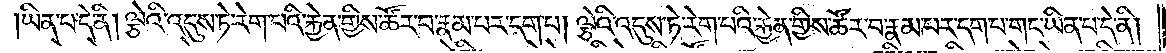ཡིན་པ་དེ་ནི། ལྕེའི་འདུས་ཏེ་རེག་པའི་རྐྱེན་གྱིས་ཚོར་བ་རྣམ་པར་དག་པ། ལྕེའི་འདུས་ཏེ་རྐྱེན་གྱིས་ཚོར་བ་རྣམ་པར་དག་པ་གང་ཡིན་པ་དེ་ནི།
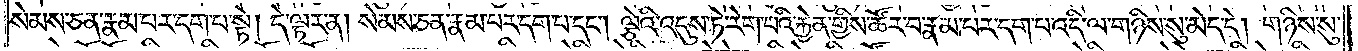སེམས་ཅན་རྣམ་པར་དག་པ་སྟེ། དེ་ལྟར་ན། སེམས་ཅན་རྣམ་པར་དག་པ་དང༌། ལྕེའི་འདུས་ཏེ་རེག་པའི་རྐྱེན་གྱིས་ཚོར་བ་རྣམ་པར་དག་པ་འདི་ལ་གཉིས་སུ་མེད་དེ། གཉིས་སུ་
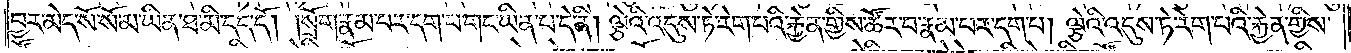བྱར་མེད་སོ་སོ་མ་ཡིན་ཐ་མི་དད་དོ། །སྲོག་རྣམ་པར་དག་པ་གང་ཡིན་པ་དེ་ནི། ལྕེའི་འདུས་ཏེ་རེག་པའི་རྐྱེན་གྱིས་ཚོར་བ་རྣམ་པར་དག་པ། ལྕེའི་འདུས་ཏེ་རེག་པའི་རྐྱེན་གྱིས་
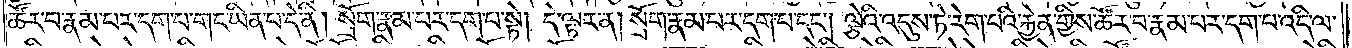ཚོར་བ་རྣམ་པར་དག་པ་གང་ཡིན་པ་དེ་ནི། སྲོག་རྣམ་པར་དག་པ་སྟེ། དེ་ལྟར་ན། སྲོག་རྣམ་པར་དག་པ་དང༌། ལྕེའི་འདུས་ཏེ་རེག་པའི་རྐྱེན་གྱིས་ཚོར་བ་རྣམ་པར་དག་པ་འདི་ལ་
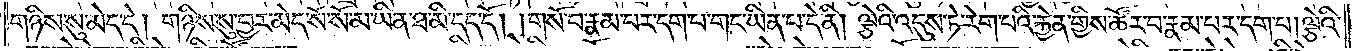གཉིས་སུ་མེད་དེ། གཉིས་སུ་བྱར་མེད་སོ་སོ་མ་ཡིན་ཐ་མི་དད་དོ། །གསོ་བ་རྣམ་པར་དག་པ་གང་ཡིན་པ་དེ་ནི། ལྕེའི་འདུས་ཏེ་རེག་པའི་རྐྱེན་གྱིས་ཚོར་བ་རྣམ་པར་དག་པ། ལྕེའི་
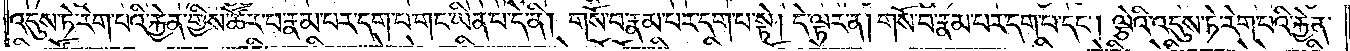འདུས་ཏེ་རེག་པའི་རྐྱེན་གྱིས་ཚོར་བ་རྣམ་པར་དག་པ་གང་ཡིན་པ་དེ་ནི། གསོ་བ་རྣམ་པར་དག་པ་སྟེ། དེ་ལྟར་ན། གསོ་བ་རྣམ་པར་དག་པ་དང༌། ལྕེའི་འདུས་ཏེ་རེག་པའི་རྐྱེན་
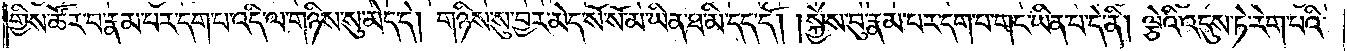གྱིས་ཚོར་བ་རྣམ་པར་དག་པ་འདི་ལ་གཉིས་སུ་མེད་དེ། གཉིས་སུ་བྱར་མེད་སོ་སོ་མ་ཡིན་ཐ་མི་དད་དོ། །སྐྱེས་བུ་རྣམ་པར་དག་པ་གང་ཡིན་པ་དེ་ནི། ལྕེའི་འདུས་ཏེ་རེག་པའི་
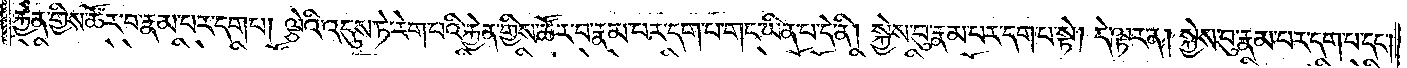རྐྱེན་གྱིས་ཚོར་བ་རྣམ་པར་དག་པ། ལྕེའི་འདུས་ཏེ་རེག་པའི་རྐྱེན་གྱིས་ཚོར་བ་རྣམ་པར་དག་པ་གང་ཡིན་པ་དེ་ནི། སྐྱེས་བུ་རྣམ་པར་དག་པ་སྟེ། དེ་ལྟར་ན། སྐྱེས་བུ་རྣམ་པར་དག་པ་དང༌།
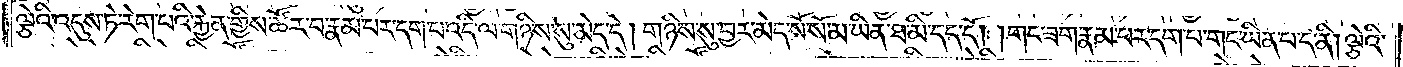ལྕེའི་འདུས་ཏེ་རེག་པའི་རྐྱེན་གྱིས་ཚོར་བ་རྣམ་པར་དག་པ་འདི་ལ་གཉིས་སུ་མེད་དེ། གཉིས་སུ་བྱར་མེད་སོ་སོ་མ་ཡིན་ཐ་མི་དད་དོ། །གང་ཟག་རྣམ་པར་དག་པ་གང་ཡིན་པ་དེ་ནི། ལྕེའི་
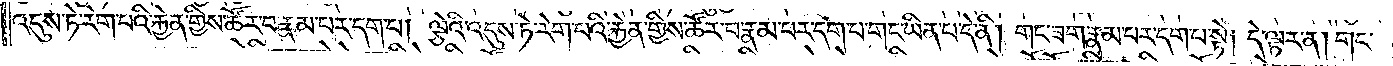འདུས་ཏེ་རེག་པའི་རྐྱེན་གྱིས་ཚོར་བ་རྣམ་པར་དག་པ། ལྕེའི་འདུས་ཏེ་རེག་པའི་རྐྱེན་གྱིས་ཚོར་བ་རྣམ་པར་དག་པ་གང་ཡིན་པ་དེ་ནི། གང་ཟག་རྣམ་པར་དག་པ་སྟེ། དེ་ལྟར་ན། གང་
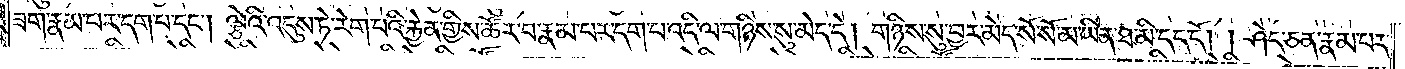ཟག་རྣམ་པར་དག་པ་དང༌། ལྕེའི་འདུས་ཏེ་རེག་པའི་རྐྱེན་གྱིས་ཚོར་བ་རྣམ་པར་དག་པ་འདི་ལ་གཉིས་སུ་མེད་དེ། གཉིས་སུ་བྱར་མེད་སོ་སོ་མ་ཡིན་ཐ་མི་དད་དོ། །ཤེད་ཅན་རྣམ་པར་
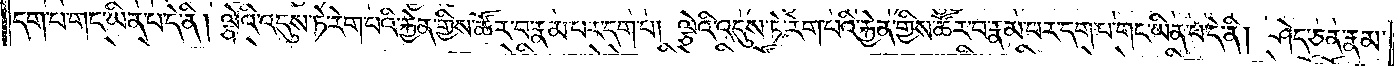དག་པ་གང་ཡིན་པ་དེ་ནི། ལྕེའི་འདུས་ཏེ་རེག་པའི་རྐྱེན་གྱིས་ཚོར་བ་རྣམ་པར་དག་པ། ལྕེའི་འདུས་ཏེ་རེག་པའི་རྐྱེན་གྱིས་ཚོར་བ་རྣམ་པར་དག་པ་གང་ཡིན་པ་དེ་ནི། ཤེད་ཅན་རྣམ་
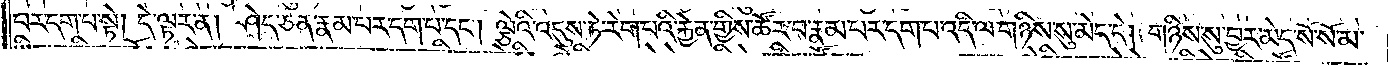བར་དག་པ་སྟེ། དེ་ལྟར་ན། ཤེད་ཅན་རྣམ་པར་དག་པ་དང༌། ལྕེའི་འདུས་ཏེ་རེག་པའི་རྐྱེན་གྱིས་ཚོར་བ་རྣམ་པར་དག་པ་འདི་ལ་གཉིས་སུ་མེད་དེ། གཉིས་སུ་བྱར་མེད་སོ་སོ་མ་
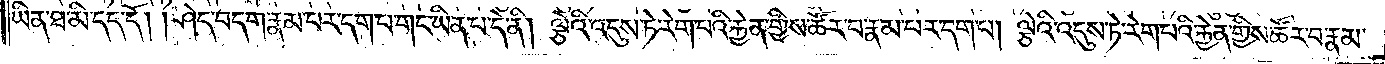ཡིན་ཐ་མི་དད་དོ། །ཤེད་བདག་རྣམ་པར་དག་པ་གང་ཡིན་པ་དེ་ནི། ལྕེའི་འདུས་ཏེ་རེག་པའི་རྐྱེན་གྱིས་ཚོར་བ་རྣམ་པར་དག་པ། ལྕེའི་འདུས་ཏེ་རེག་པའི་རྐྱེན་གྱིས་ཚོར་བ་རྣམ་
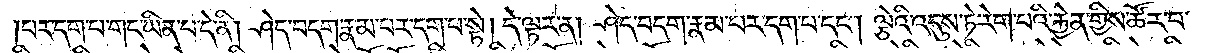པར་དག་པ་གང་ཡིན་པ་དེ་ནི། ཤེད་བདག་རྣམ་པར་དག་པ་སྟེ། དེ་ལྟར་ན། ཤེད་བདག་རྣམ་པར་དག་པ་དང༌། ལྕེའི་འདུས་ཏེ་རེག་པའི་རྐྱེན་གྱིས་ཚོར་བ་
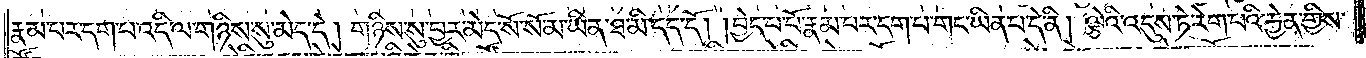རྣམ་པར་དག་པ་འདི་ལ་གཉིས་སུ་མེད་དེ། གཉིས་སུ་བྱར་མེད་སོ་སོ་མ་ཡིན་ཐ་མི་དད་དོ། །བྱེད་པ་པོ་རྣམ་པར་དག་པ་གང་ཡིན་པ་དེ་ནི། ལྕེའི་འདུས་ཏེ་རེག་པའི་རྐྱེན་གྱིས་
